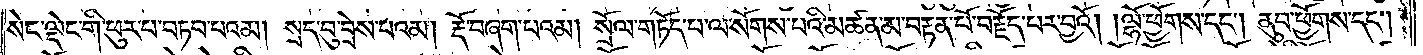སེང་ལྡེང་གི་ཕུར་པ་བཏབ་པའམ། སྲད་བུ་བྲེས་པའམ། རྡོ་བཞག་པའམ། སྲོལ་གཏོད་པ་ལ་སོགས་པའི་མཚན་མ་བརྟན་པོ་བརྗོད་པར་བྱའོ། །ལྷོ་ཕྱོགས་དང༌། ནུབ་ཕྱོགས་དང༌།
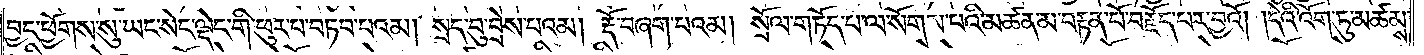བྱང་ཕྱོགས་སུ་ཡང་སེང་ལྡེང་གི་ཕུར་པ་བཏབ་པའམ། སྲད་བུ་བྲེས་པའམ། རྡོ་བཞག་པའམ། སྲོལ་གཏོད་པ་ལ་སོགས་པའི་མཚན་མ་བརྟན་པོ་བརྗོད་པར་བྱའོ། །དེའི་འོག་ཏུ་མཚམས་
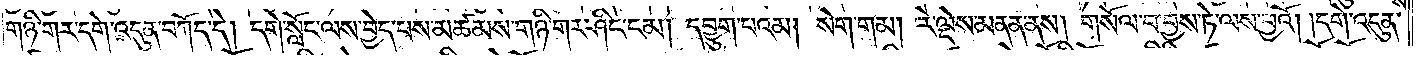གཉི་གར་དགེ་འདུན་བཀོད་དེ། དགེ་སློང་ལས་བྱེད་པས་མཚམས་གཉི་གར་ཤིང་ངམ། དབྱུག་པའམ། སེག་གམ། རེ་ལྡེས་མནན་ནས། གསོལ་བ་བྱས་ཏེ་ལས་བྱའོ། །དགེ་འདུན་
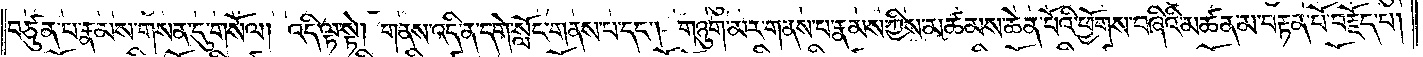བཙུན་པ་རྣམས་གསན་དུ་གསོལ། འདི་ལྟ་སྟེ། གནས་འདི་ན་དགེ་སློང་གནས་པ་དང༌། གཉུག་མར་གནས་པ་རྣམས་ཀྱིས་མཚམས་ཆེན་པོའི་ཕྱོགས་བཞིའི་མཚན་མ་བརྟན་པོ་བརྗོད་པ།
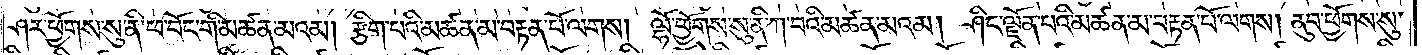ཤར་ཕྱོགས་སུ་ནི་ཕ་བོང་གི་མཚན་མའམ། རྩིག་པའི་མཚན་མ་བརྟན་པོ་ལགས། ལྷོ་ཕྱོགས་སུ་ནི་ཀ་བའི་མཚན་མའམ། ཤིང་ལྗོན་པའི་མཚན་མ་བརྟན་པོ་ལགས། ནུབ་ཕྱོགས་སུ་
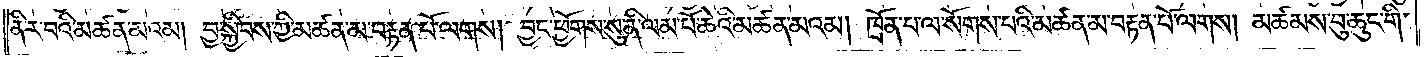ནི་ར་བའི་མཚན་མའམ། བྱ་སྐྱིབས་ཀྱི་མཚན་མ་བརྟན་པོ་ལགས། བྱང་ཕྱོགས་སུ་ནི་ལམ་པོ་ཆེའི་མཚན་མའམ། ཁྲོན་པ་ལ་སོགས་པའི་མཚན་མ་བརྟན་པོ་ལགས། མཚམས་བུ་ཆུང་གི་
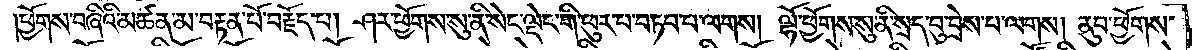ཕྱོགས་བཞིའི་མཚན་མ་བརྟན་པོ་བརྗོད་པ། ཤར་ཕྱོགས་སུ་ནི་སེང་ལྡེང་གི་ཕུར་བ་བཏབ་པ་ལགས། ལྷོ་ཕྱོགས་སུ་ནི་སྲད་བུ་བྲེས་པ་ལགས། ནུབ་ཕྱོགས་
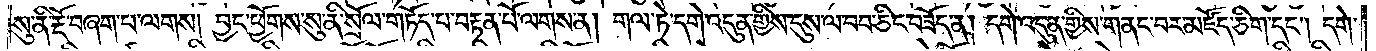སུ་ནི་རྡོ་བཞག་པ་ལགས། བྱང་ཕྱོགས་སུ་ནི་སྲོལ་གཏོད་པ་བརྟན་པོ་ལགས་ན། གལ་ཏེ་དགེ་འདུན་གྱིས་དུས་ལ་བབ་ཅིང་བཟོད་ན། དགེ་འདུན་གྱིས་གནང་བར་མཛོད་ཅིག་དང༌། དགེ་
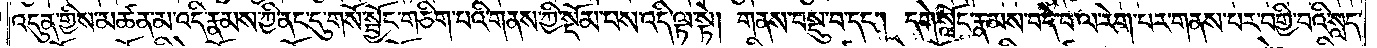འདུན་གྱིས་མཚན་མ་འདི་རྣམས་ཀྱི་ནང་དུ་གསོ་སྦྱོང་གཅིག་པའི་གནས་ཀྱི་སྡོམ་པས་འདི་ལྟ་སྟེ། གནས་བསྡུ་བ་དང༌། དགེ་སློང་རྣམས་བདེ་བ་ལ་རེག་པར་གནས་པར་བགྱི་བའི་སླད་
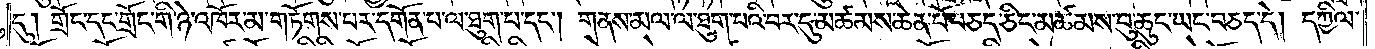དུ། གྲོང་དང་གྲོང་གི་ཉེ་འཁོར་མ་གཏོགས་པར་དགོན་པ་ལ་ཐུག་པ་དང༌། གནས་མལ་ལ་ཐུག་པའི་བར་དུ་མཚམས་ཆེན་པོ་བཅད་ཅིང་མཚམས་བུ་ཆུང་ཡང་བཅད་དེ། དཀྱིལ་
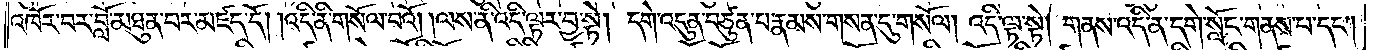འཁོར་བར་བློ་མཐུན་བར་མཛད་དོ། །འདི་ནི་གསོལ་བའོ། །ལས་ནི་འདི་ལྟར་བྱ་སྟེ། དགེ་འདུན་བཙུན་པ་རྣམས་གསན་དུ་གསོལ། འདི་ལྟ་སྟེ། གནས་འདི་ན་དགེ་སློང་གནས་པ་དང༌།
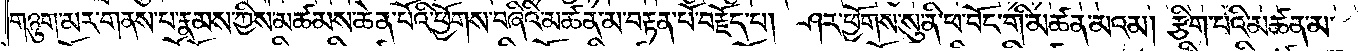གཉུག་མར་གནས་པ་རྣམས་ཀྱིས་མཚམས་ཆེན་པོའི་ཕྱོགས་བཞིའི་མཚན་མ་བརྟན་པོ་བརྗོད་པ། ཤར་ཕྱོགས་སུ་ནི་ཕ་བོང་གི་མཚན་མའམ། རྩིག་པའི་མཚན་མ་
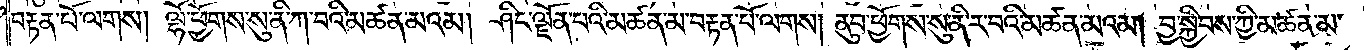བརྟན་པོ་ལགས། ལྷོ་ཕྱོགས་སུ་ནི་ཀ་བའི་མཚན་མའམ། ཤིང་ལྗོན་པའི་མཚན་མ་བརྟན་པོ་ལགས། ནུབ་ཕྱོགས་སུ་ནི་ར་བའི་མཚན་མའམ། བྱ་སྐྱིབས་ཀྱི་མཚན་མ་
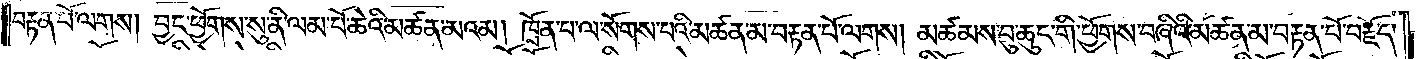བརྟན་པོ་ལགས། བྱང་ཕྱོགས་སུ་ནི་ལམ་པོ་ཆེའི་མཚན་མའམ། ཁྲོན་པ་ལ་སོགས་པའི་མཚན་མ་བརྟན་པོ་ལགས། མཚམས་བུ་ཆུང་གི་ཕྱོགས་བཞིའི་མཚན་མ་བརྟན་པོ་བརྗོད་
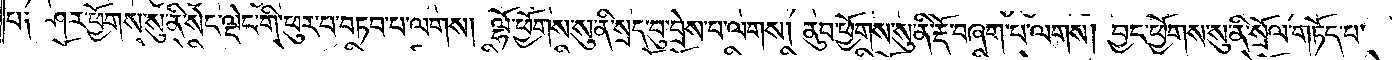པ༑ ཤར་ཕྱོགས་སུ་ནི་སེང་ལྡེང་གི་ཕུར་པ་བཏབ་པ་ལགས། ལྷོ་ཕྱོགས་སུ་ནི་སྲད་བུ་བྲེས་བ་ལགས། ནུབ་ཕྱོགས་སུ་ནི་རྡོ་བཞག་པ་ལགས། བྱང་ཕྱོགས་སུ་ནི་སྲོལ་གཏོད་པ་
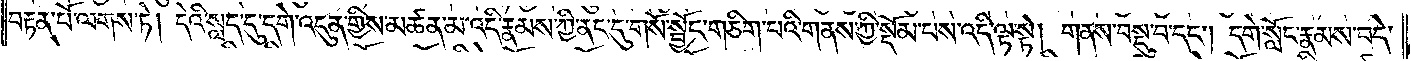བརྟན་པོ་ལགས་ཏེ། དེའི་སླད་དུ་དགེ་འདུན་གྱིས་མཚན་མ་འདི་རྣམས་ཀྱི་ནང་དུ་གསོ་སྦྱོང་གཅིག་པའི་གནས་ཀྱི་སྡོམ་པས་འདི་ལྟ་སྟེ། གནས་བསྡུ་བ་དང༌། དགེ་སློང་རྣམས་བདེ་
